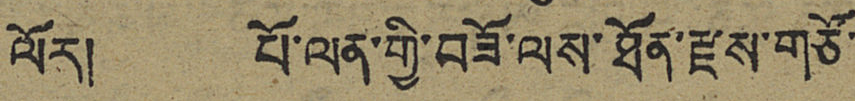ལོར། པོ་ལན་གྱི་བཟོ་ལས་ཐོན་རྫས་གཙོ་
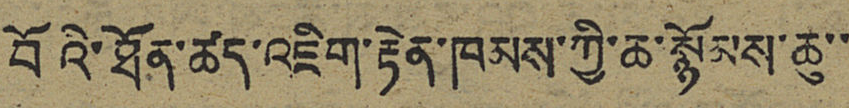བོའི་ཐོན་ཚད་འཇིག་རྟེན་ཁམས་ཀྱི་ཆ་སྙོམས་ཆུ་་
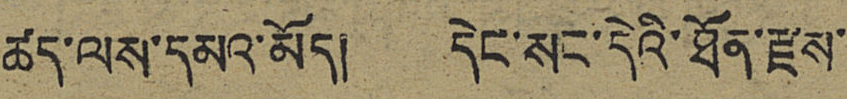ཚད་ལས་དམའ་མོད། དེང་སང་དེའི་ཐོན་རྫས་
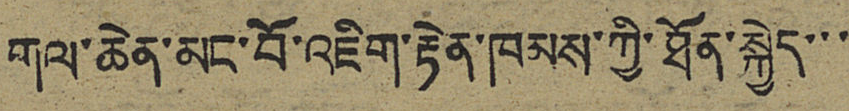གལ་ཆེན་མང་བོ་འཇིག་རྟེན་ཁམས་ཀྱི་ཐོན་སྐྱེད་་་
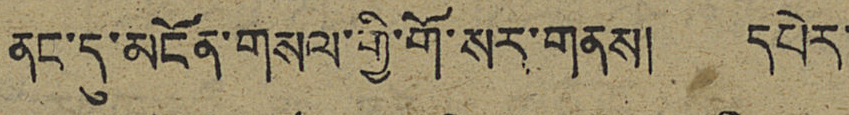ནང་དུ་མངོན་གསལ་གྱི་གོ་སར་གནས། དཔེར་
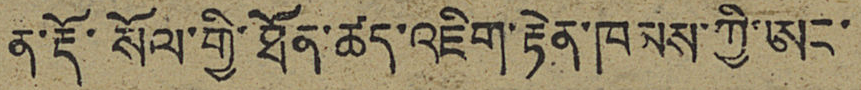ན་རྡོ་སོལ་གྱི་ཐོན་ཚད་འཇིག་རྟེན་ཁམས་ཀྱི་ཨང་
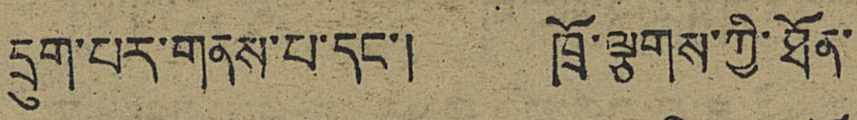དྲུག་པར་གནས་པ་དང་། ཁྲོ་ལྕགས་ཀྱི་ཐོན་
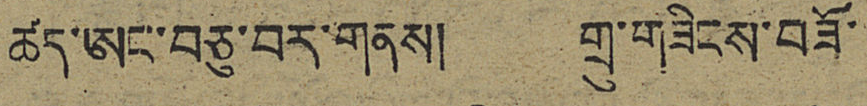ཚད་ཨང་བཅུ་བར་གནས། གྲུ་གཟིངས་བཟོ་
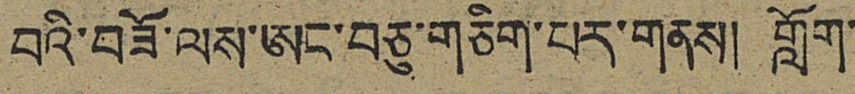བའི་བཟོ་ལས་ཨང་བཅུ་གཅིག་པར་གནས། གློག་
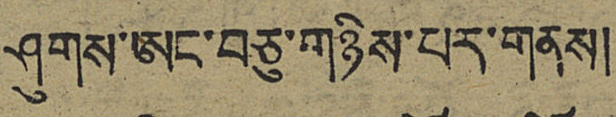ཤུགས་ཨང་བཅུ་གཉིས་པར་གནས།
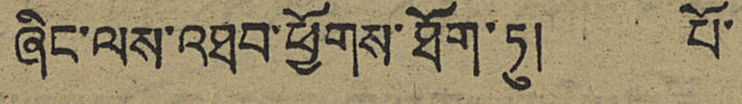ཞིང་ལས་འཐབ་ཕྱོགས་ཐོག་ཏུ། པོ་
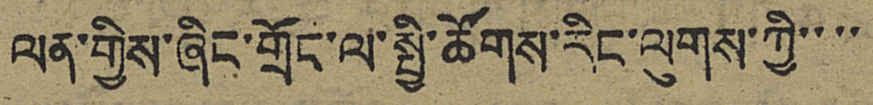ལན་གྱིས་ཞིང་གྲོང་ལ་སྤྱི་ཚོགས་རིང་ལུགས་ཀྱི་་་་
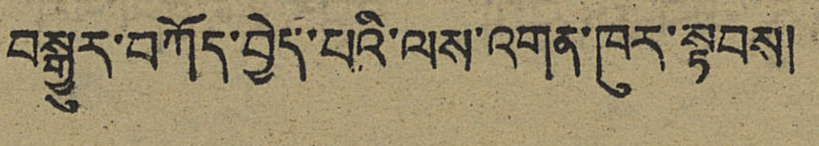བསྒྱུར་བཀོད་བྱེད་པའི་ལས་འགན་ཁུར་སྟབས།
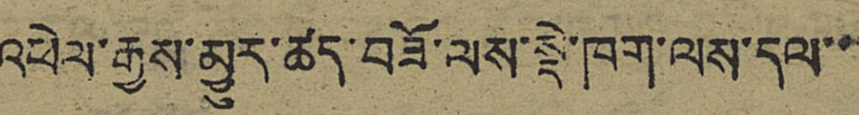འཕེལ་རྒྱས་མྱུར་ཚད་བཟོ་ལས་སྡེ་ཁག་ལས་དལ་་
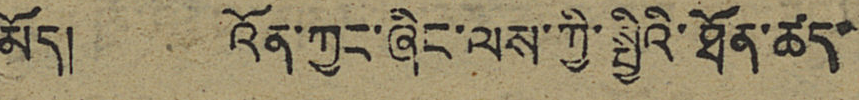མོད། འོན་ཀྱང་ཞིང་ལས་ཀྱི་སྤྱིའི་ཐོན་ཚད་
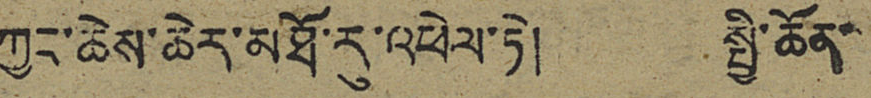ཀྱང་ཆེས་ཆེར་མཐོ་རུ་འཕེལ་ཏེ། སྤྱི་ཆོན་
